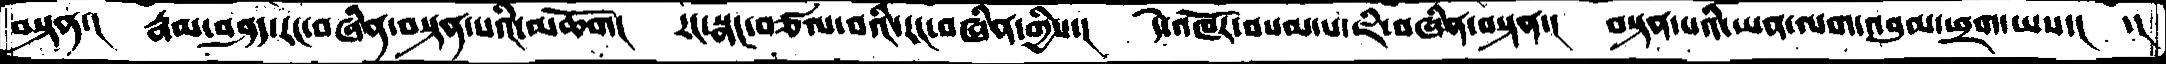བསྟན་།  རྣམ་བཤད་རང་བཞིན་བསྟན་པའི་མཆོག།  རང་སྣང་བཙལ་བའི་རང་བཞིན་གྱིས་།  དེ་འཁོར་བསམ་པ་ཇི་བཞིན་བསྟན་།  བསྟན་པའི་ཡན་ལག་འབུམ་ཕྲག་ཡས་།  ་།
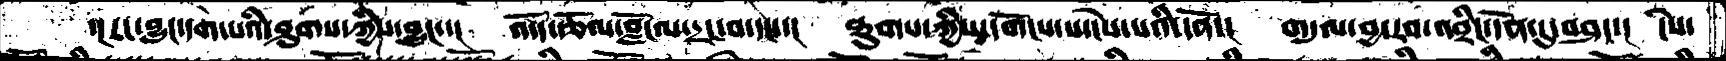་།རང་བྱུང་དག་པའི་ཤུགས་ཀྱིས་བྱུང་་།  འདོད་རྩོལ་བློ་ལ་དྲང་བ་དང་་།  ཐུགས་ཀྱིས་དགོངས་པ་ངེས་པའི་དོན་།  གདུལ་བྱ་རབ་འབྲིང་དོན་དུ་བཤད་།  ངེས་
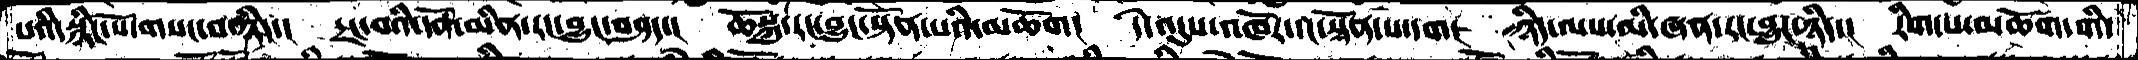པའི་སྙིང་པོ་གསང་བ་ཉིད་།   དྲང་བའི་དོན་མིན་རང་བྱུང་བཤད་།   ཆོསྐུ་རང་བྱུང་སྟོན་པའི་མཆོག།  དེ་འདུས་འཁོར་དང་སྟོན་པ་དག།  ཉིད་ལས་མི་ཞན་རང་བྱུང་ཉིད་།  རིག་པ་མཆོག་གི་
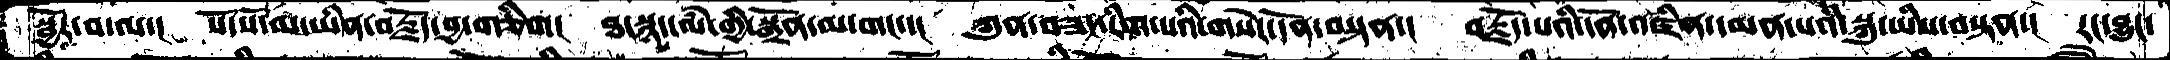སྦྱོར་བ་ལ་།   སོ་སོ་མ་ཡིན་བརྗོད་བྱ་གཅིག།  ཐ་སྙད་ལཾ་གྱི་སྒྲོན་མ་གང་་།   ཀུན་བཟང་རིག་པའི་གསེར་དོན་བསྟན་།   བརྗོད་པའི་དོན་འཛིན་དམན་པའི་སྐུ་ཡིས་བསྟན་།   རང་བྱུང་
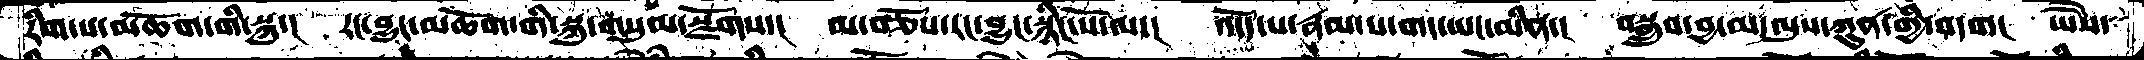རིག་པ་མཆོག་གི་སྐུ་།   རང་བྱུང་མཆོག་གི་སྐུ་གསུམ་སྫོགས་།  མ་བཅོས་རང་བྱུང་སྙིང་པོ་ལ་།   འདོད་པ་རྣམ་པ་གང་ཡང་མིན་།  བསྒྲུབ་བྱ་མ་ལུས་ཀུན་གྱི་བདག།  ཡཻས་
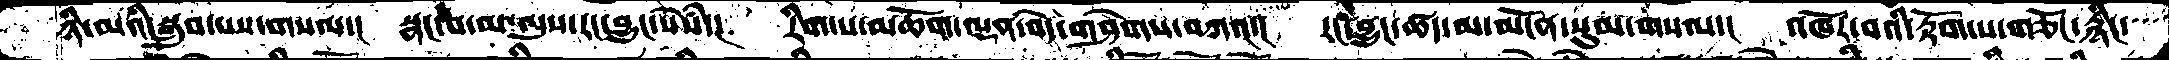ཉི་མའི་སྒྲུབ་པས་གསལ་།  སྣང་བ་མ་ལུས་རང་བྱུང་སེཾས་།  རིག་པ་མཆོག་ལྡན་བདེ་གཤེགས་བཀའ་།  རང་བྱུང་ཚད་མ་མངོན་སུམ་གསལ་།  འཁོར་བའི་རྟོག་པ་གཅོང་རྙིང་
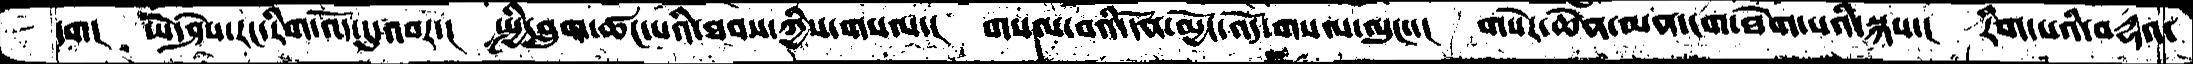དག།  ཡེ་ཤེས་རང་རིག་འོད་དུ་འབར་།   སྤྱི་བླུག་ཚང་པའི་ཐབས་ཀྱིས་གསལ་།  གསལ་བའི་དོན་མྱོང་འོད་གསལ་ལུང་་།  གསེར་ཆེན་མན་ངག་ཐེག་པའི་སྐས་།  རིག་པའི་བདྷའ་
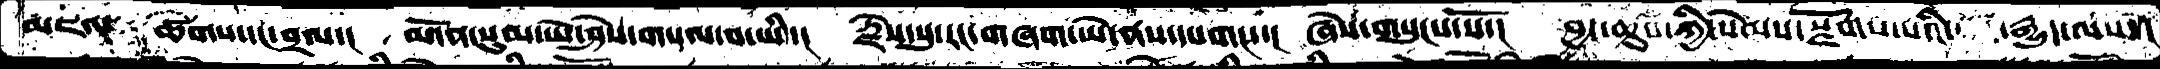མཇལ  ཚེགས་དང་བྲལ་།  མངོན་སུམ་ཡེ་ཤེས་གསལ་བ་ཡི་།  རྗེས་སུ་རང་གཞག་ཡེ་ནས་དཔགང་་།  ཞེས་གསུངས་སོ་།  བྱང་ཆུབ་ཀྱི་སེམས་སྫོགས་པའི་  རྒྱུད་ལས་།
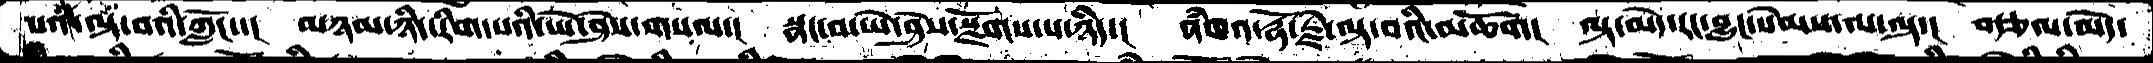པའི་ལྟ་བའི་ཀློང་་།  མཉམ་ཉིད་རིག་པའི་ཡེ་ཤེས་གསལ་།  སྣང་བ་ཡེ་ཤེས་སྫོགས་པ་ཉིད་།  ནཾཁའ་རྡོ་རྗེ་ལྟ་བའི་མཆོག།  ལྟ་མེད་རང་བྱུང་སེམས་ལ་ལྟ་།  བརྩལ་མེད་
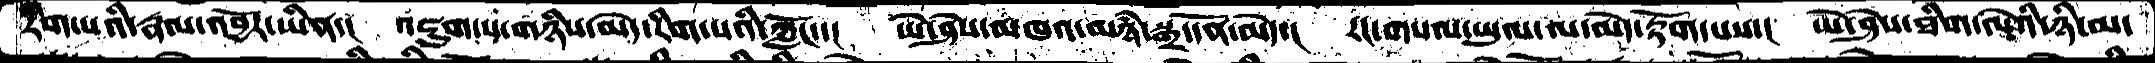རིག་པའི་རྣལ་འབྱོར་ཡིན་།  འཇུག་པ་གཉིས་མེད་རིག་པའི་ཀློང་་།  ཡེ་ཤེས་མཁའ་མཉཾ་སྒྲ་དོན་མེད་།  རང་གསལ་ཡུལ་ལ་མེད་རྟོག་པས་།  ཡེ་ཤེས་ཐིག་ལེའི་ཉི་མ་
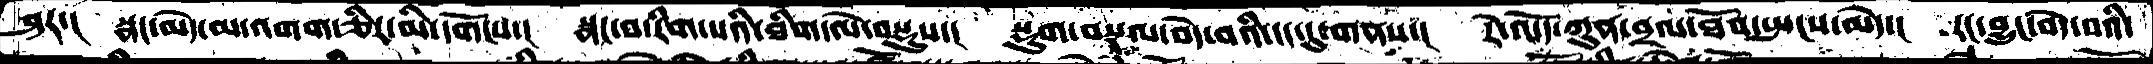ཤར་།  སྣང་མེད་མ་འགག་ཅིར་མི་དགོངས་།  སྣང་བ་རིག་པའི་ཐིག་ལེ་བསྡུས་།  སྡུག་བསྔལ་བདེ་བའི་ངང་དུ་གནས་།  རེ་འདོད་ཀུན་བྲལ་ཐོབ་སྤངས་མེད་།  རང་བྱུང་བདེ་བའི་
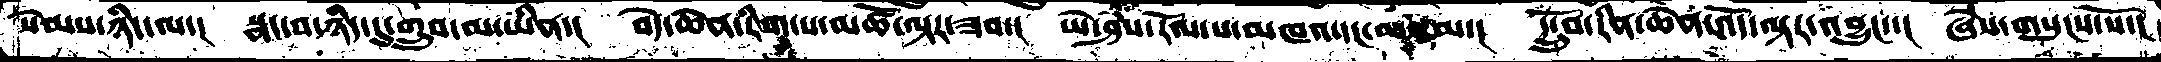སེམས་ཉིད་ལ་།  སྣང་བ་ཉིད་དུ་གྲུབ་མ་ཡིན་།  བདེ་ཆེན་རིག་པ་མཚོ་ལྟར་ཟབ་།  ཡེ་ཤེས་རོལ་པ་མཁའ་དང་མཉམ་།  དངྲོུབ་རིན་ཆེན་འདོ་ལྟར་འབྱུང་་།  ཞེས་གསུངས་སོ་།
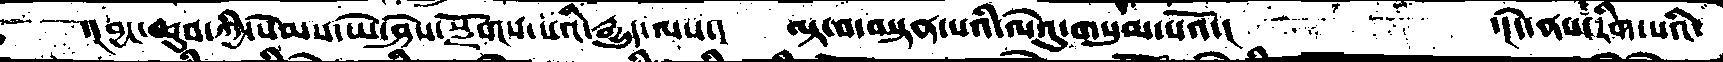དང་བྱང་ཆུབ་ཀྱི་སེམས་ཡེ་ཤེས་སྫོགས་པའི་རྒྱུད་ལས་།  ལྟ་བ་བསྟན་པའི་ལེའུ་གསུམ་པའོ་།   ་།དེ་ནས་རིག་པའི་
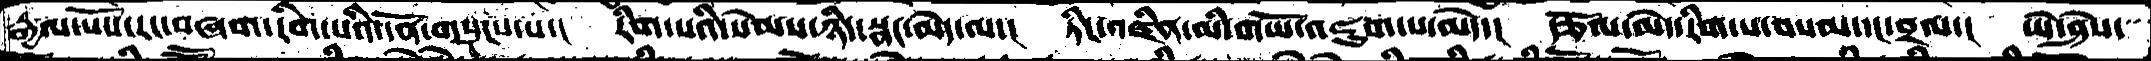རྒྱལ་པོས་རང་བཞག་རིག་པའི་དོན་གསུངས་པ་།  རིག་པའི་སེམས་ཉིད་སྣང་མེད་ལ་།  ཏིང་འཛིན་མི་གཡོ་འཇུག་པ་མེད་།  རྩོལ་མེད་རིག་པ་བསམ་དང་བྲལ་།  ཡེ་ཤེས་
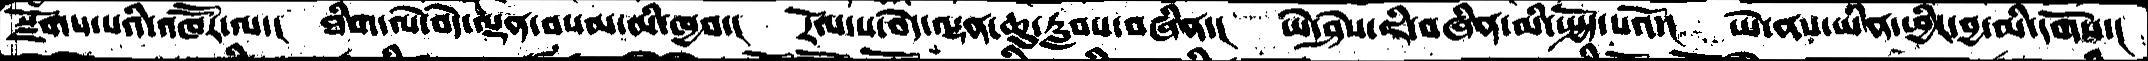སྫོགས་པའི་འཁཽར་ལ་།  ཐིག་ལེ་བདེ་ལྡན་བསམ་མི་ཁྱབ་།  རོལ་པ་བདེ་ལྡན་ཆུ་རླབས་བཞིན་།  ཡེ་ཤེས་ཇི་བཞིན་མི་སྤྱོད་པའོ་།  ཡེ་ནས་ཡིན་ཕྱིར་བྱ་མི་དགོས་།
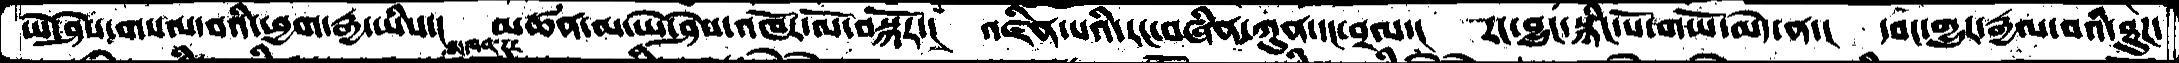ཡེ་ཤེས་གསལ་བའི་ཕྱག་རྒྱ་ཡིས་། མཚན་མ་ཡེ་ཤེས་འཁོར་ལོ་བསྐོར་། འཛིན་པའི་རང་བཞིན་ཀུན་དང་བྲལ་། རང་བྱུང་སྙིང་པོ་གཡོ་མེད་ན་། དབང་གྱུར་རྒྱལ་བའི་ཐུཌ་
